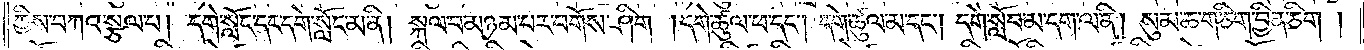ཀྱིས་བཀའ་སྩལ་པ། དགེ་སློང་དང་དགེ་སློང་མ་ནི། སྐལ་བ་མཉམ་པར་བགོས་ཤིག །དགེ་ཚུལ་ཕ་དང༌། དགེ་ཚུལ་མ་དང༌། དགེ་སློབ་མ་དག་ལ་ནི། སུམ་ཆ་གཅིག་བྱིན་ཅིག །
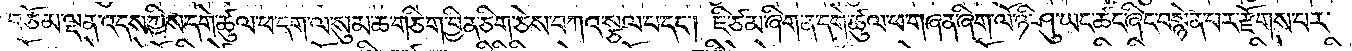བཅོམ་ལྡན་འདས་ཀྱིས་དགེ་ཚུལ་ཕ་དག་ལ་སུམ་ཆ་གཅིག་བྱིན་ཅིག་ཅེས་བཀའ་སྩལ་པ་དང༌། ཇི་ཙམ་ཞིག་ན་དགེ་ཚུལ་ཕ་གཞན་ཞིག་ལོ་ཉི་ཤུ་ཡང་ཚང་ཞིང་བསྙེན་པར་རྫོགས་པར་
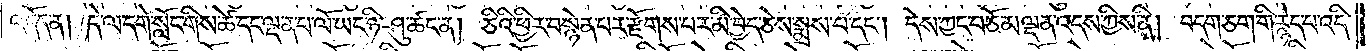འདོད་ན། དེ་ལ་དགེ་སློང་གིས་ཚེ་དང་ལྡན་པ་ལོ་ཡང་ཉི་ཤུ་ཚང་ན། ཅིའི་ཕྱིར་བསྙེན་པར་རྫོགས་པར་མི་བྱེད་ཅེས་སྨྲས་པ་དང༌། དེས་ཀྱང་བཅོམ་ལྡན་འདས་ཀྱིས་ནི། བདག་ཅག་གི་རྙེད་པ་འདི་
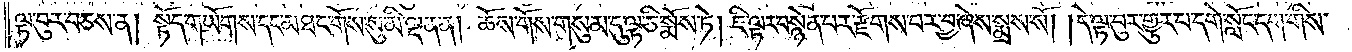ལྟ་བུར་བཅས་ན། སྟོད་གཡོགས་དང་མཐང་གོས་སུ་མི་ལྡན་ན། ཆོས་གོས་གསུམ་དུ་ལྟ་ཅི་སྨོས་ཏེ། ཇི་ལྟར་བསྙེན་པར་རྫོགས་པར་བྱ་ཞེས་སྨྲས་སོ། །དེ་ལྟ་བུར་གྱུར་པ་དགེ་སློང་དག་གིས་
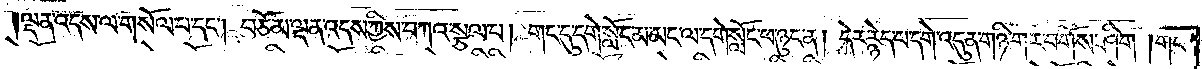ལྡན་འདས་ལ་གསོལ་པ་དང༌། བཅོམ་ལྡན་འདས་ཀྱིས་བཀའ་སྩལ་པ། གང་དུ་དགེ་སློང་མ་མང་ལ་དགེ་སློང་ཕ་ཉུང་ན། དེར་རྙེད་པ་དགེ་འདུན་གཉི་གར་བགོས་ཤིག །གང་
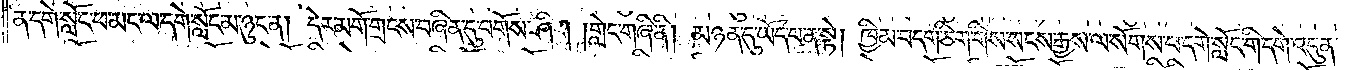ན་དགེ་སློང་ཕ་མང་ལ་དགེ་སློང་མ་ཉུང་ན། དེར་མགོ་གྲངས་བཞིན་དུ་བགོས་ཤིག །གླེང་གཞི་ནི། མཉན་དུ་ཡོད་པ་ན་སྟེ། ཁྱིམ་བདག་ཅིག་གིས་སངས་རྒྱས་ལ་སོགས་པ་དགེ་སློང་གི་དགེ་འདུན་
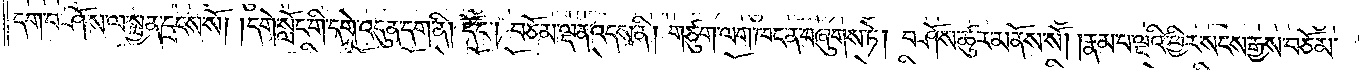དག་བཤོས་ལ་སྤྱན་དྲངས་སོ། །དགེ་སློང་གི་དགེ་འདུན་དག་ནི། དོང༌། བཅོམ་ལྡན་འདས་ནི། གཙུག་ལག་ཁང་ན་བཞུགས་ཏེ། བཤོས་ཚུར་མནོས་སོ། །རྣམ་པ་ལྔའི་ཕྱིར་སངས་རྒྱས་བཅོམ་
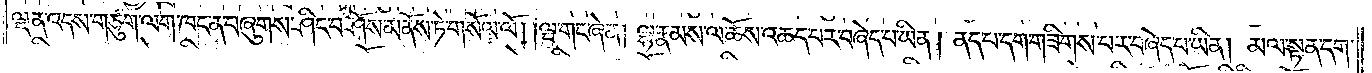ལྡན་འདས་གཙུག་ལག་ཁང་ན་བཞུགས་ཤིང་བཤོས་མནོས་ཏེ་གསོལ་ལོ། །ལྔ་གང་ཞེ་ན། ལྷ་རྣམས་ལ་ཆོས་འཆད་པར་བཞེད་པ་ཡིན། ནད་པ་དག་གཟིགས་པར་བཞེད་པ་ཡིན། མལ་སྟན་དག་
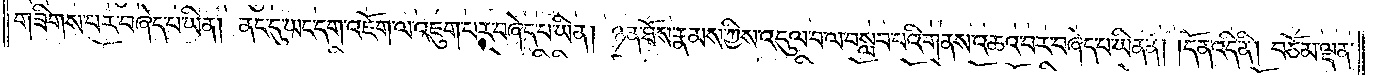གཟིགས་པར་བཞེད་པ་ཡིན། ནང་དུ་ཡང་དག་འཇོག་ལ་འཇུག་པར་བཞེད་པ་ཡིན། ཉན་ཐོས་རྣམས་ཀྱིས་འདུལ་བ་ལ་བསླབ་པའི་གནས་འཆའ་བར་བཞེད་པ་ཡིན་ནོ། །དོན་འདི་ནི། བཅོམ་ལྡན་
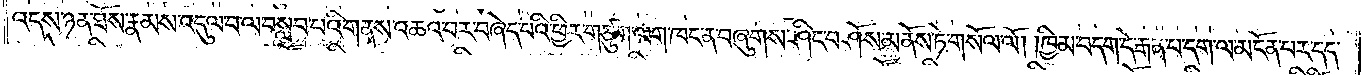འདས་ཉན་ཐོས་རྣམས་འདུལ་བ་ལ་བསླབ་པའི་གནས་འཆའ་བར་བཞེད་པའི་ཕྱིར་གཙུག་ལག་ཁང་ན་བཞུགས་ཤིང་བཤོས་མནོས་ཏེ་གསོལ་ལོ། །ཁྱིམ་བདག་དེ་རྒན་པ་དག་ལ་མངོན་པར་དད་
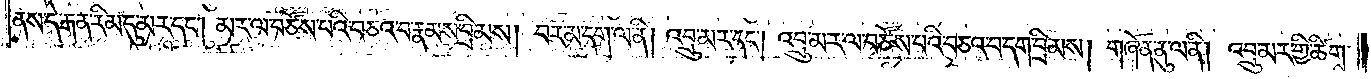ནས་དེ་རྒན་རིམ་དུ་མར་དང༌། མར་ལ་བཙོས་པའི་བཅའ་བ་རྣམས་བྲིམས། བར་མ་དག་ལ་ནི། འབྲུ་མར་དང༌། འབྲུ་མར་ལ་བཙོས་པའི་བཅའ་བ་དག་བྲིམས། གཞོན་ནུ་ལ་ནི། འབྲུ་མར་གྱི་ཚིགས་
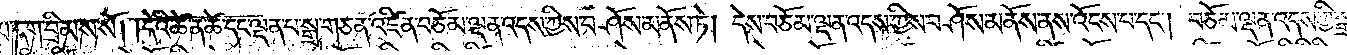མ་དག་བྲིམས་སོ། །དེའི་ཚེ་ན་ཚེ་དང་ལྡན་པ་སྒྲ་གཅན་འཛིན་བཅོམ་ལྡན་འདས་ཀྱིས་བཤོས་མནོས་ཏེ། དེས་བཅོམ་ལྡན་འདས་ཀྱིས་བཤོས་མནོས་ནས་འོངས་པ་དང༌། བཅོམ་ལྡན་འདས་ཀྱི་སྒྲ་
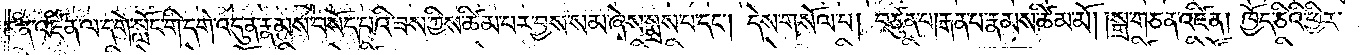གཅན་འཛིན་ལ་དགེ་སློང་གི་དགེ་འདུན་རྣམས་བསོད་པའི་ཟས་ཀྱིས་ཚིམ་པར་བྱས་སམ་ཞེས་སྨྲས་པ་དང༌། དེས་གསོལ་པ། བཙུན་པ། རྒན་པ་རྣམས་ཚིམ་མོ། །སྒྲ་གཅན་འཛིན། ཁྱོད་ཅིའི་ཕྱིར་
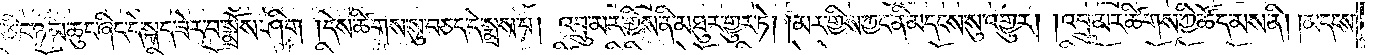རིང་ཅིང་ཉམ་ཆུང་ཞིང་དེ་སྐད་ཟེར་བ་སྨྲོས་ཤིག །དེས་ཚིགས་སུ་བཅད་དེ་སྨྲས་པ། འབྲུ་མར་གྱིས་ནི་མཐུར་གྱུར་ཏེ། །མར་གྱིས་ཀྱང་ནི་མདངས་སུ་འགྱུར། །འབྲུ་མར་ཚིགས་ཀྱི་ཚོད་མས་ནི། །མདངས་
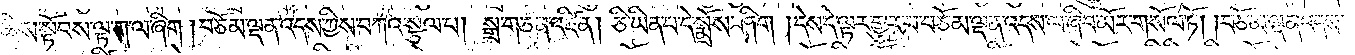མཆིས་སྟོབས་ལྟ་ག་ལ་ཞིག །བཅོམ་ལྡན་འདས་ཀྱིས་བཀའ་སྩལ་པ། སྒྲ་གཅན་འཛིན། ཅི་ཡིན་པ་དེ་སྨྲོས་ཤིག །དེས་དེ་ལྟར་གྱུར་པ་བཅོམ་ལྡན་འདས་ལ་ཞིབ་མོར་གསོལ་ཏོ། །བཅོམ་ལྡན་འདས་
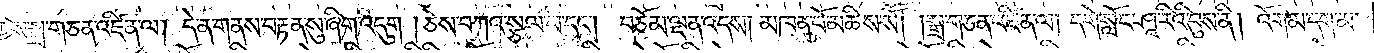ཀྱིས་སྒྲ་གཅན་འཛིན་ལ། དེ་ན་གནས་བརྟན་སུ་ཞིག་འདུག །ཅེས་བཀའ་སྩལ་པ་དང༌། བཅོམ་ལྡན་འདས། མཁན་པོ་མཆིས་སོ། །སྒྲ་གཅན་འཛིན་ལ། དགེ་སློང་ཤཱ་རིའི་བུས་ནི། འོག་མ་དག་མ་
